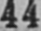44
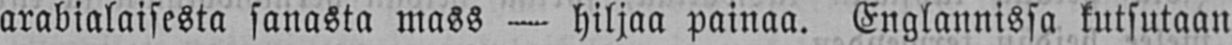arabialaisesta sanasta mass — hiljaa painaa. Englannissa kutsutaan
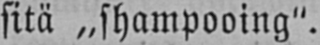sitä „shampooing".
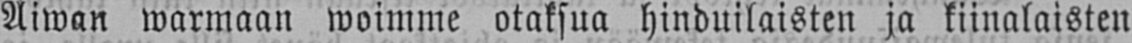Aiwan warmaan woimme otaksua hinduilaisten ja kiinalaisten
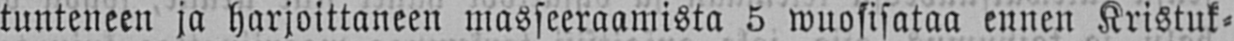tunteneen ja harjoittaneen masseeraamista 5 wuosisataa ennen Kristuk-
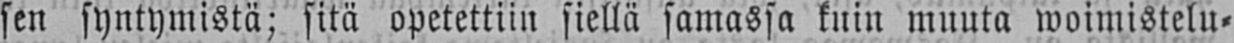sen syntymistä; sitä opetettiin siellä samassa kuin muuta woimistelu-
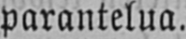parantelua.
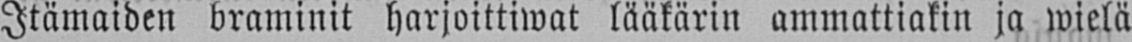Itämaiden braminit harjoittiwat lääkärin ammattiakin ja wielä
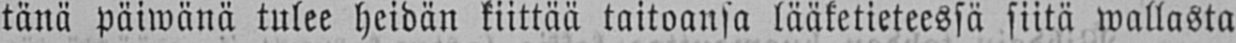tänä päiwänä tulee heidän kiittää taitoansa lääketieteessä siitä wallasta
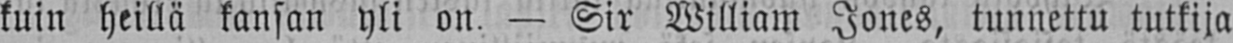kuin heillä kansan yli on. — Sir William Jones, tunnettu tutkija
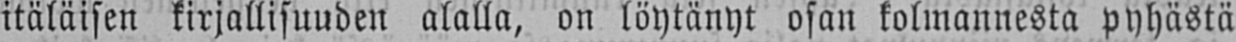itäläisen kirjallisuuden alalla, on löytänyt osan kolmannesta pyhästä
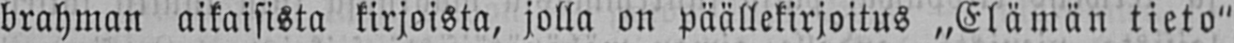brahman aikaisista kirjoista, jolla on päällekirjoitus „Elämän tieto"
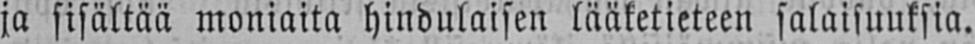ja sisältää moniaita hindulaisen lääketieteen salaisuuksia.
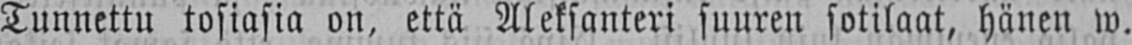Tunnettu tosiasia on, että Aleksanteri suuren sotilaat, hänen w.
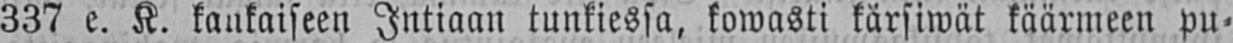337 e. K. kaukaiseen Intiaan tunkiessa, kowasti kärsiwät käärmeen pu-
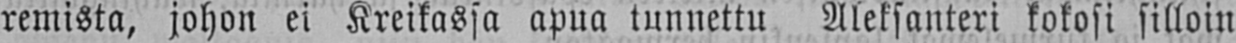remista, johon ei Kreikassa apua tunnettu Aleksanteri kokosi silloin
